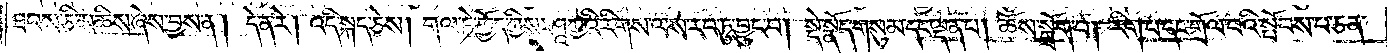ཐབས་ཅི་མཆིས་ཞེས་བྱས་ན། དེ་ན་རེ། འདི་སྐད་ཅེས། གལ་ཏེ་ཁྱོད་ཀྱིས་ཤཱཀྱའི་རིགས་ལས་རབ་ཏུ་བྱུང་བ། སྡེ་སྣོད་གསུམ་དང་ལྡན་པ། ཆོས་སྒྲོག་པ། རིག་པ་དང་གྲོལ་བའི་སྤོབས་པ་ཅན་
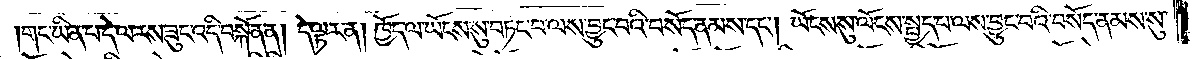གང་ཡིན་པ་དེ་ལ་རས་ཟུང་འདི་བསྐོན་ན། དེ་ལྟར་ན། ཁྱོད་ལ་ཡོངས་སུ་བཏང་བ་ལས་བྱུང་བའི་བསོད་ནམས་དང༌། ཡོངས་སུ་ལོངས་སྤྱད་པ་ལས་བྱུང་བའི་བསོད་ནམས་སུ་
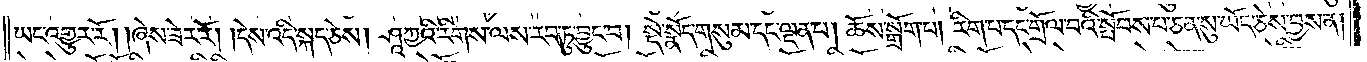ཡང་འགྱུར་རོ། །ཞེས་ཟེར་རོ། །དེས་འདི་སྐད་ཅེས། ཤཱཀྱའི་རིགས་ལས་རབ་ཏུ་བྱུང་བ། སྡེ་སྣོད་གསུམ་དང་ལྡན་པ། ཆོས་སྒྲོག་པ། རིག་པ་དང་གྲོལ་བའི་སྤོབས་པ་ཅན་སུ་ཡོད་ཅེས་བྱས་ན།
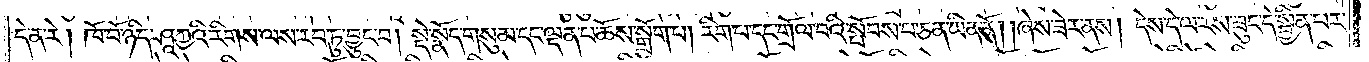དེ་ན་རེ། ཁོ་བོ་ཉིད་ཤཱཀྱའི་རིགས་ལས་རབ་ཏུ་བྱུང་བ། སྡེ་སྣོད་གསུམ་དང་ལྡན་པ་ཆོས་སྒྲོག་པ། རིག་པ་དང་གྲོལ་བའི་སྤོབས་པ་ཅན་ཡིན་ནོ། །ཞེས་ཟེར་ནས། དེས་དེ་ལ་རས་ཟུང་དེ་སྦྱིན་པར་
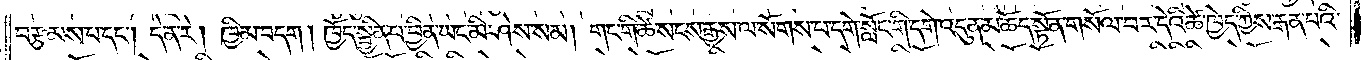བརྩམས་པ་དང༌། དེ་ན་རེ། ཁྱིམ་བདག །ཁྱོད་སྦྱིན་པ་བྱིན་ཡང་མི་ཤེས་སམ། གང་གི་ཚེ་སངས་རྒྱས་ལ་སོགས་པ་དགེ་སློང་གི་དགེ་འདུན་མཆོད་སྟོན་གསོལ་བར་དེའི་ཚེ་ཁྱེད་ཀྱིས་རྒན་པའི་
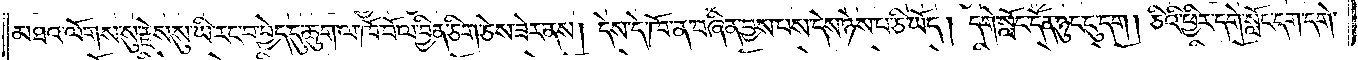མཐའ་ལོགས་སུ་རྗེས་སུ་ཡི་རང་བ་བྱེད་དུ་ཆུག་ལ་ཁོ་བོ་ལ་བྱིན་ཅིག་ཅེས་ཟེར་ནས། དེས་དེ་ཁོ་ན་བཞིན་བྱས་པས་དེས་ཉེས་པ་ཅི་ཡོད། དགེ་སློང་དོན་ཉུང་ངུ་དག །ཅིའི་ཕྱིར་དགེ་སློང་དག་དགེ་
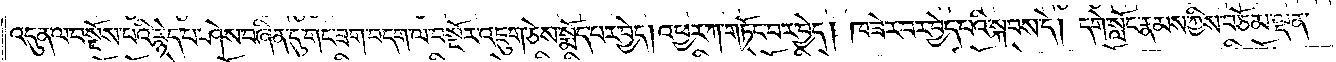འདུན་ལ་བསྔོས་པའི་རྙེད་པ་ཤེས་བཞིན་དུ་གང་ཟག་བདག་ལ་བསྔོར་འཇུག་ཅེས་སྨོད་པར་བྱེད། འཕྱར་ཀ་གཏོང་བར་བྱེད། ཁ་ཟེར་བར་བྱེད་པའི་སྐབས་དེ། དགེ་སློང་རྣམས་ཀྱིས་བཅོམ་ལྡན་
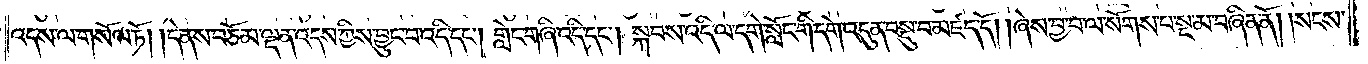འདས་ལ་གསོལ་ཏོ། །དེ་ནས་བཅོམ་ལྡན་འདས་ཀྱིས་བྱུང་བ་འདི་དང༌། གླེང་གཞི་འདི་དང༌། སྐབས་འདི་ལ་དགེ་སློང་གི་དགེ་འདུན་བསྡུ་བ་མཛད་དོ། །ཞེས་བྱ་བ་ལ་སོགས་པ་སྔ་མ་བཞིན་ནོ། །སངས་
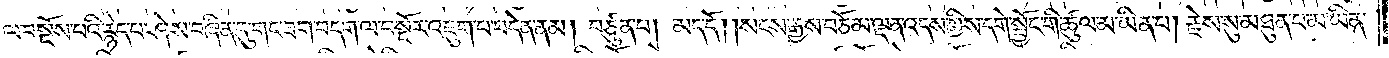ལ་བསྔོས་པའི་རྙེད་པ་ཤེས་བཞིན་དུ་གང་ཟག་བདག་ལ་བསྔོར་འཇུག་པ་བདེན་ནམ། བཙུན་པ། མད་དོ། །སངས་རྒྱས་བཅོམ་ལྡན་འདས་ཀྱིས་དགེ་སྦྱོང་གི་ཚུལ་མ་ཡིན་པ། རྗེས་སུ་མཐུན་པ་མ་ཡིན་
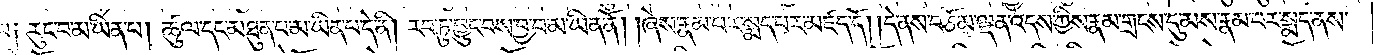པ༑ རུང་བ་མ་ཡིན་པ། ཚུལ་དང་མཐུན་པ་མ་ཡིན་པ་དེ་ནི། རབ་ཏུ་བྱུང་བས་བྱ་བ་མ་ཡིན་ནོ། །ཞེས་རྣམ་པར་སྨད་པར་མཛད་དོ། །དེ་ནས་བཅོམ་ལྡན་འདས་ཀྱིས་རྣམ་གྲངས་དུ་མས་རྣམ་པར་སྨད་ནས་
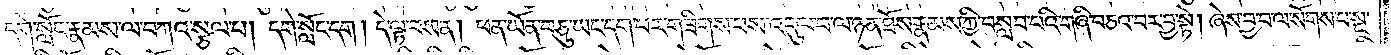དགེ་སློང་རྣམས་ལ་བཀའ་སྩལ་པ། དགེ་སློང་དག །དེ་ལྟ་བས་ན། ཕན་ཡོན་བཅུ་ཡང་དག་པར་གཟིགས་པས་འདུལ་བ་ལ་ཉན་ཐོས་རྣམས་ཀྱི་བསླབ་པའི་གཞི་བཅའ་བར་བྱ་སྟེ། ཞེས་བྱ་བ་ལ་སོགས་པ་སྔ་
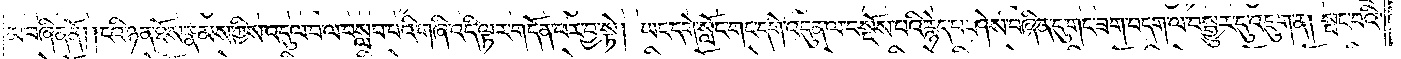མ་བཞིན་ནོ། །ངའི་ཉན་ཐོས་རྣམས་ཀྱིས་འདུལ་བ་ལ་བསླབ་པའི་གཞི་འདི་ལྟར་གདོན་པར་བྱ་སྟེ། ཡང་དགེ་སློང་གང་དགེ་འདུན་ལ་བསྔོས་པའི་རྙེད་པ་ཤེས་བཞིན་དུ་གང་ཟག་བདག་ལ་བསྒྱུར་དུ་འཇུག་ན། སྤང་བའི་
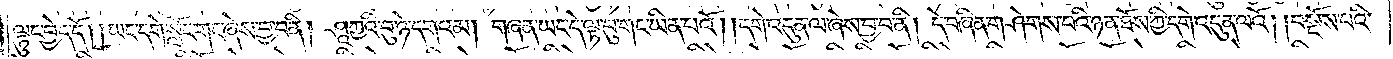ལྟུང་བྱེད་དོ། །ཡང་དགེ་སློང་གང་ཞེས་བྱ་བ་ནི། ཤཱཀྱའི་བུ་ཉེ་དགའམ། གཞན་ཡང་དེ་ལྟ་བུ་གང་ཡིན་པའོ། །དགེ་འདུན་ལ་ཞེས་བྱ་བ་ནི། དེ་བཞིན་གཤེགས་པའི་ཉན་ཐོས་ཀྱི་དགེ་འདུན་ལའོ། །བསྔོས་པའི་
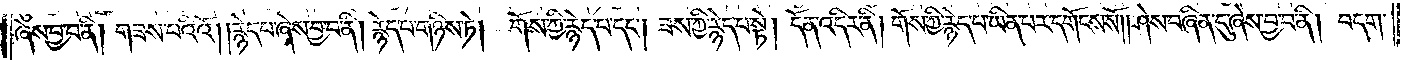ཞེས་བྱ་བ་ནི། གཟས་པའིའོ། །རྙེད་པ་ཞེས་བྱ་བ་ནི། རྙེད་པ་གཉིས་ཏེ། གོས་ཀྱི་རྙེད་པ་དང༌། ཟས་ཀྱི་རྙེད་པ་སྟེ། དོན་འདིར་ནི། གོས་ཀྱི་རྙེད་པ་ཡིན་པར་དགོངས་སོ། །ཤེས་བཞིན་དུ་ཞེས་བྱ་བ་ནི། བདག་
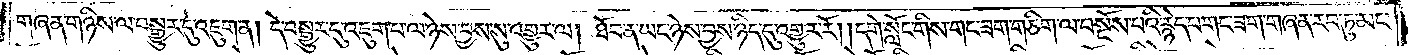གཞན་གཉིས་ལ་བསྒྱུར་དུ་འཇུག་ན། དེ་བསྒྱུར་དུ་འཇུག་པ་ལ་ཉེས་བྱས་སུ་འགྱུར་ལ། ཐོབ་ན་ཡང་ཉེས་བྱས་ཉིད་དུ་འགྱུར་རོ། །དགེ་སློང་གིས་གང་ཟག་གཅིག་ལ་བསྔོས་པའི་རྙེད་པ་གང་ཟག་གཞན་རབ་ཏུ་མང་
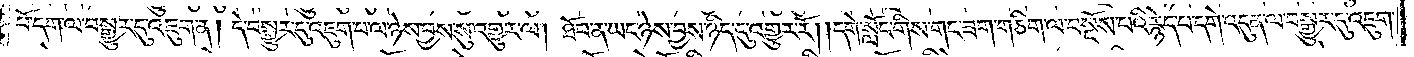པོ་དག་ལ་བསྒྱུར་དུ་འཇུག་ན། དེ་བསྒྱུར་དུ་འཇུག་པ་ལ་ཉེས་བྱས་སུ་འགྱུར་ལ། ཐོབ་ན་ཡང་ཉེས་བྱས་ཉིད་དུ་འགྱུར་རོ། །དགེ་སློང་གིས་གང་ཟག་གཅིག་ལ་བསྔོས་པའི་རྙེད་པ་དགེ་འདུན་ལ་བསྒྱུར་དུ་འཇུག་
